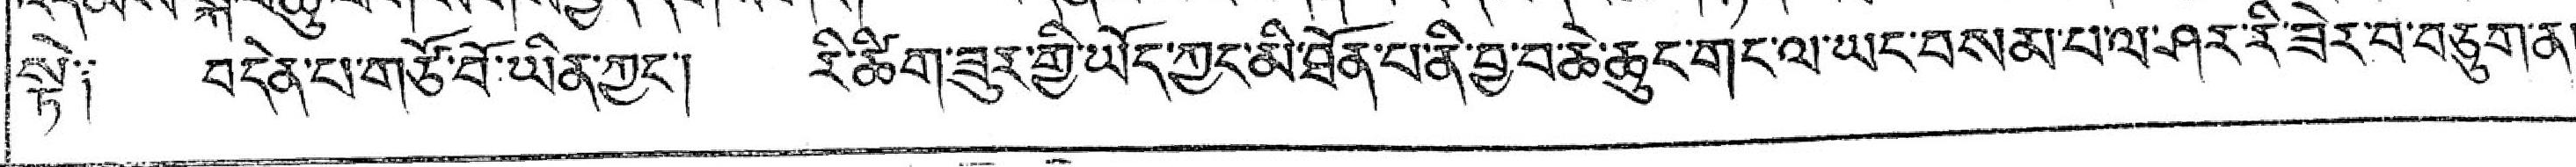སྟེ༑ བདེན་པ་གཙོ་བོ་ཡིན་ཀྱང་། རི་ཚིག་ཟུར་གྱི་ཡོད་ཀྱང་མི་ཐོན་པ་ནི་བྱ་བ་ཆེ་ཆུང་གང་ལ་ཡང་བསམ་པ་ལ་ཤར་རི་ཟེར་བ་བཅུག་ན།
